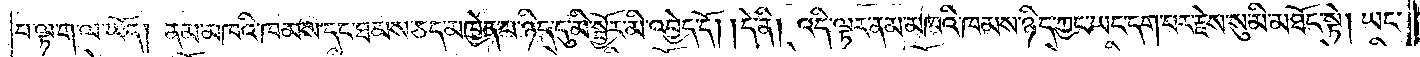པ་ལྟ་ག་ལ་ཡོད། ནམ་མཁའི་ཁམས་དང་ཐམས་ཅད་མཁྱེན་པ་ཉིད་དུ་མི་སྦྱོར་མི་འབྱེད་དོ། །དེ་ནི། འདི་ལྟར་ནམ་མཁའི་ཁམས་ཉིད་ཀྱང་ཡང་དག་པར་རྗེས་སུ་མི་མཐོང་སྟེ། ཡང་
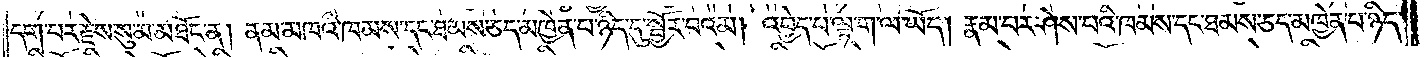དག་པར་རྗེས་སུ་མ་མཐོང་ན། ནམ་མཁའི་ཁམས་དང་ཐམས་ཅད་མཁྱེན་པ་ཉིད་དུ་སྦྱོར་བའམ། འབྱེད་པ་ལྟ་ག་ལ་ཡོད། རྣམ་པར་ཤེས་པའི་ཁམས་དང་ཐམས་ཅད་མཁྱེན་པ་ཉིད་
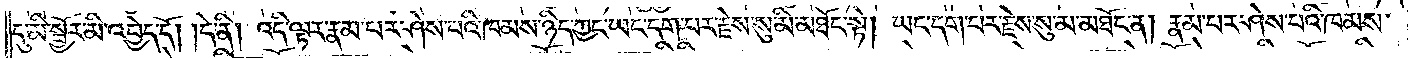དུ་མི་སྦྱོར་མི་འབྱེད་དོ། །དེ་ནི། འདི་ལྟར་རྣམ་པར་ཤེས་པའི་ཁམས་ཉིད་ཀྱང་ཡང་དག་པར་རྗེས་སུ་མི་མཐོང་སྟེ། ཡང་དག་པར་རྗེས་སུ་མ་མཐོང་ན། རྣམ་པར་ཤེས་པའི་ཁམས་
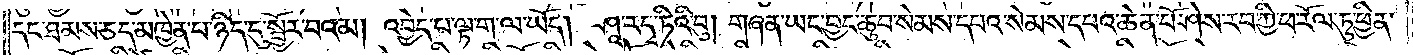དང་ཐམས་ཅད་མཁྱེན་པ་ཉིད་དུ་སྦྱོར་བའམ། འབྱེད་པ་ལྟ་ག་ལ་ཡོད། ཤཱ་རདྭ་ཏིའི་བུ། གཞན་ཡང་བྱང་ཆུབ་སེམས་དཔའ་སེམས་དཔའ་ཆེན་པོ་ཤེས་རབ་ཀྱི་ཕ་རོལ་ཏུ་ཕྱིན་
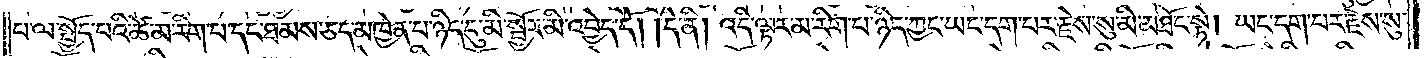པ་ལ་སྤྱོད་པའི་ཚེ་མ་རིག་པ་དང་ཐམས་ཅད་མཁྱེན་པ་ཉིད་དུ་མི་སྦྱོར་མི་འབྱེད་དོ། །དེ་ནི། འདི་ལྟར་མ་རིག་པ་ཉིད་ཀྱང་ཡང་དག་པར་རྗེས་སུ་མི་མཐོང་སྟེ། ཡང་དག་པར་རྗེས་སུ་
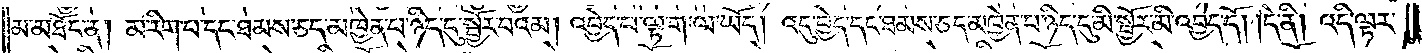མ་མཐོང་ན། མ་རིག་པ་དང་ཐམས་ཅད་མཁྱེན་པ་ཉིད་དུ་སྦྱོར་བའམ། འབྱེད་པ་ལྟ་ག་ལ་ཡོད། འདུ་བྱེད་དང་ཐམས་ཅད་མཁྱེན་པ་ཉིད་དུ་མི་སྦྱོར་མི་འབྱེད་དོ། །དེ་ནི། འདི་ལྟར་
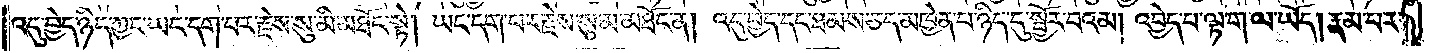འདུ་བྱེད་ཉིད་ཀྱང་ཡང་དག་པར་རྗེས་སུ་མི་མཐོང་སྟེ། ཡང་དག་པར་རྗེས་སུ་མ་མཐོང་ན། འདུ་བྱེད་དང་ཐམས་ཅད་མཁྱེན་པ་ཉིད་དུ་སྦྱོར་བའམ། འབྱེད་པ་ལྟ་ག་ལ་ཡོད། རྣམ་པར་
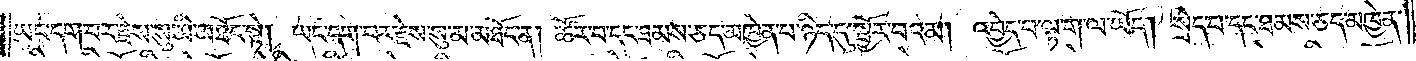ཡང་དག་པར་རྗེས་སུ་མི་མཐོང་སྟེ། ཡང་དག་པར་རྗེས་སུ་མ་མཐོང་ན། ཚོར་བ་དང་ཐམས་ཅད་མཁྱེན་པ་ཉིད་དུ་སྦྱོར་བའམ། འབྱེད་པ་ལྟ་ག་ལ་ཡོད། སྲེད་པ་དང་ཐམས་ཅད་མཁྱེན་
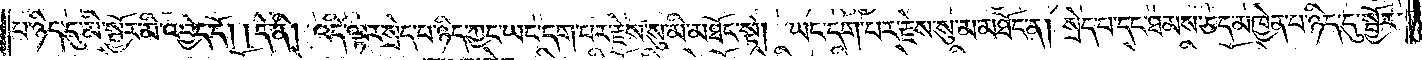པ་ཉིད་དུ་མི་སྦྱོར་མི་འབྱེད་དོ། །དེ་ནི། འདི་ལྟར་སྲེད་པ་ཉིད་ཀྱང་ཡང་དག་པར་རྗེས་སུ་མི་མཐོང་སྟེ། ཡང་དག་པར་རྗེས་སུ་མ་མཐོང་ན། སྲེད་པ་དང་ཐམས་ཅད་མཁྱེན་པ་ཉིད་དུ་སྦྱོར་
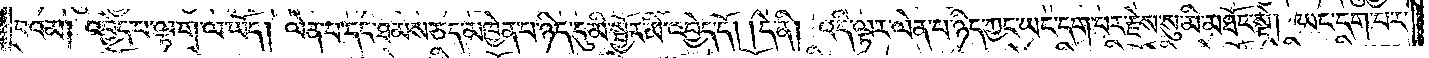བའམ། འབྱེད་པ་ལྟ་ག་ལ་ཡོད། ལེན་པ་དང་ཐམས་ཅད་མཁྱེན་པ་ཉིད་དུ་མི་སྦྱོར་མི་འབྱེད་དོ། །དེ་ནི། འདི་ལྟར་ལེན་པ་ཉིད་ཀྱང་ཡང་དག་པར་རྗེས་སུ་མི་མཐོང་སྟེ། ཡང་དག་པར་
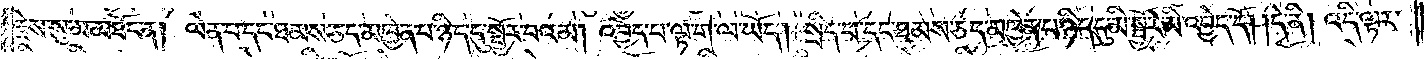རྗེས་སུ་མ་མཐོང་ན། ལེན་པ་དང་ཐམས་ཅད་མཁྱེན་པ་ཉིད་དུ་སྦྱོར་བའམ། འབྱེད་པ་ལྟ་ག་ལ་ཡོད། སྲིད་པ་དང་ཐམས་ཅད་མཁྱེན་པ་ཉིད་དུ་མི་སྦྱོར་མི་འབྱེད་དོ། །དེ་ནི། འདི་ལྟར་
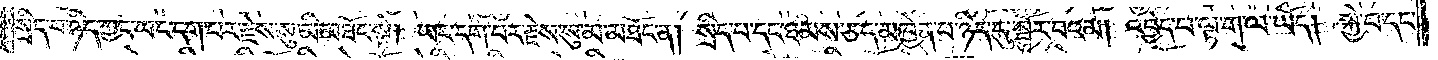སྲིད་པ་ཉིད་ཀྱང་ཡང་དག་པར་རྗེས་སུ་མི་མཐོང་སྟེ། ཡང་དག་པར་རྗེས་སུ་མ་མཐོང་ན། སྲིད་པ་དང་ཐམས་ཅད་མཁྱེན་པ་ཉིད་དུ་སྦྱོར་བའམ། འབྱེད་པ་ལྟ་ག་ལ་ཡོད། སྐྱེ་བ་དང་
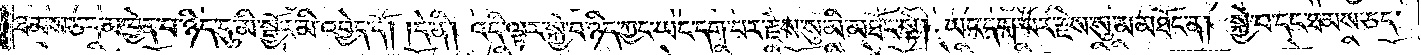ཐམས་ཅད་མཁྱེན་པ་ཉིད་དུ་མི་སྦྱོར་མི་འབྱེད་དོ། །དེ་ནི། འདི་ལྟར་སྐྱེ་བ་ཉིད་ཀྱང་ཡང་དག་པར་རྗེས་སུ་མི་མཐོང་སྟེ། ཡང་དག་པར་རྗེས་སུ་མ་མཐོང་ན། སྐྱེ་བ་དང་ཐམས་ཅད་
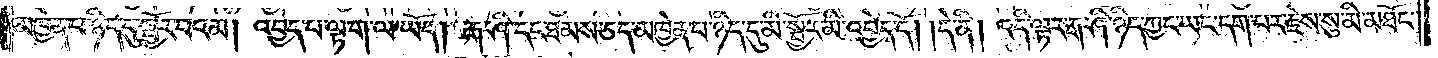མཁྱེན་པ་ཉིད་དུ་སྦྱོར་བའམ། འབྱེད་པ་ལྟ་ག་ལ་ཡོད། རྒ་ཤི་དང་ཐམས་ཅད་མཁྱེན་པ་ཉིད་དུ་མི་སྦྱོར་མི་འབྱེད་དོ། །དེ་ནི། འདི་ལྟར་རྒ་ཤི་ཉིད་ཀྱང་ཡང་དག་པར་རྗེས་སུ་མི་མཐོང་
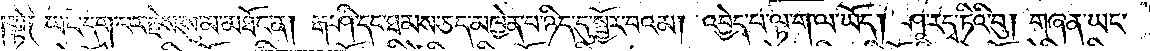སྟེ༑ ཡང་དག་པར་རྗེས་སུ་མ་མཐོང་ན། རྒ་ཤི་དང་ཐམས་ཅད་མཁྱེན་པ་ཉིད་དུ་སྦྱོར་བའམ། འབྱེད་པ་ལྟ་ག་ལ་ཡོད། ཤཱ་རདྭ་ཏིའི་བུ། གཞན་ཡང་
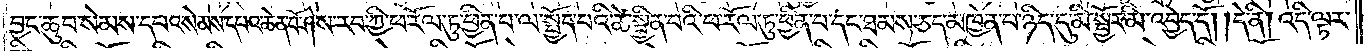བྱང་ཆུབ་སེམས་དཔའ་སེམས་དཔའ་ཆེན་པོ་ཤེས་རབ་ཀྱི་ཕ་རོལ་ཏུ་ཕྱིན་པ་ལ་སྤྱོད་པའི་ཚེ་སྦྱིན་པའི་ཕ་རོལ་ཏུ་ཕྱིན་པ་དང་ཐམས་ཅད་མཁྱེན་པ་ཉིད་དུ་མི་སྦྱོར་མི་འབྱེད་དོ། །དེ་ནི། འདི་ལྟར་
